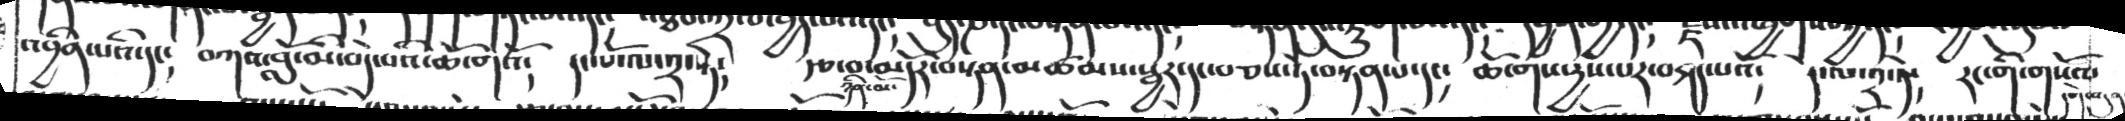འབྱིན་པའི་དང༴  བཀའ་བློ་མི་བདེ་པའི་ཆོ་གའོ༴  དང་པོ་ལ་༢་སྟེ༴  རྩ་བ་མདོར་བསྟན་མཚམས་སྦྱར་དང་བཅས་ཏེ་བསྟན་པ་དང༴  ཆོ་གས་རྱས་པར་བཤད་པའོ༴  དེ་ལ་༢་ཏེ༴  རང་གི་གསོལ
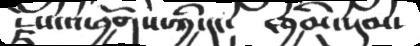རྗེས་ཕྱོགས་ཀྱི་དང། ཁྱིམ་སུམ་
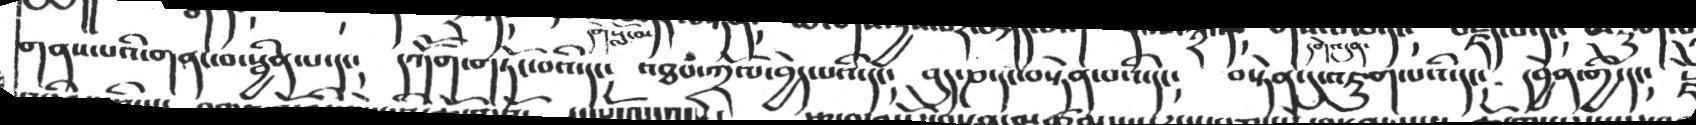གནས་པའི་གནང་བ་སྦྱིན་པ་དང༴  དཀོོག་གཏོང་བའི་དང༴  འཐབ་ཀྲོལ་བྱེད་པའི་དང༴  བུད་ཎ་དང་བསྟན་པའི་དང༴  བསྟེན་དུ་འཇུག་པའི་དང༴  དབྱེན་གྱི་དང༴  རྗེ
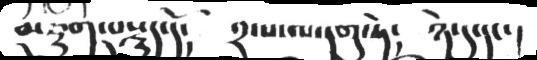མཇུག་བསྡུད་དོ། ༢་པ་ལ་དགུ་ཏེ། ཉེ་དུ་དང་།
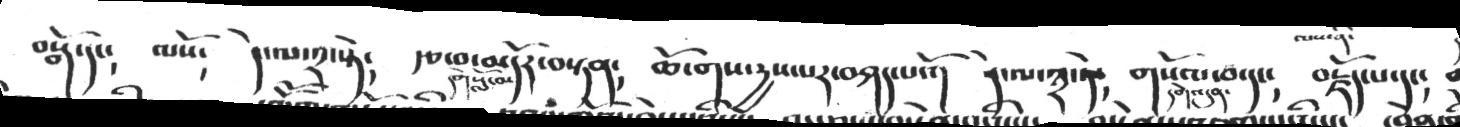བསྒོ་དང༴  ལསོ༴  དེ་ལ་༢་སྟེ༴  རྩ་བ་མདོར་བསྟན༴ ཆོ་གས་རྱས་པར་བཤད་པའོ།  དེ་ལ་༣་ཏེ༴   གསོལ་བ་དང༴  བརྗོད་པ་དང༴
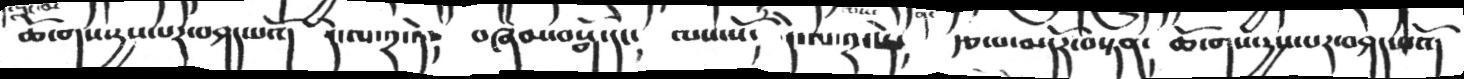ཆོ་གས་དྱས་པར་བཤད་པའོ།  དེ་ལ་༢་ཏེ༴   བཞམ་བསྒོ་དང༴   ལས་སོ༴   དེ་ལ་༢་སྟེ༴   རྩ་བ་མདོར་བསྟན༴   ཆོ་གས་དྱས་པར་བཤད་པའོ།
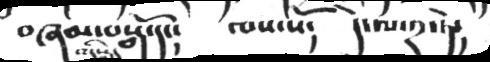བཞམ་བསྒོ་དང༴   ལས་སོ༴   དེ་ལ་༢་ཏེ༴
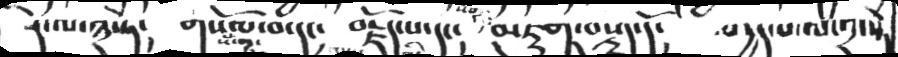དེ་ལ་༣་སྟེ།      གསོལ་བ་དང།   བརྗོད་པ་དང།    མཇུག་བསྡུད་དོ།    བདྱད་པ་ལ་༢་སྟེ
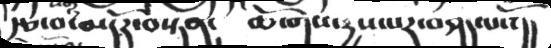རྩ་བ་མདོར་བསྟན།   ཆོ་གས་དྱས་པར་བཤད་པའོ།།
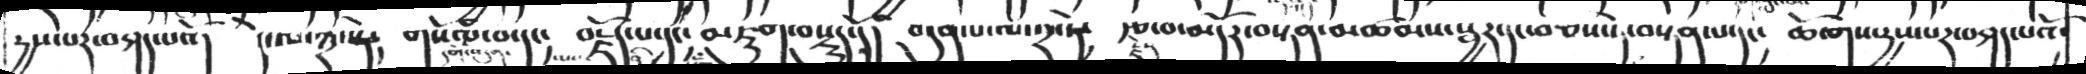རྱས་པར་བཤད་པའོ།   དེ་ལ་༣་སྟེ།   གསོལ་བ་དང།  བརྗོད་པ་དང།  མཇུག་བསྡུད་དོ།   བདུན་པ་ལ་༢་ཏེ་    རྩ་བ་མདོར་བསྟན་མཚམས་སྦྱར་དང་བཅས་ཏེ་བསྟན་པ་དང།   ཆོ་གས་རྱས་པར་བཤད་པའོ་
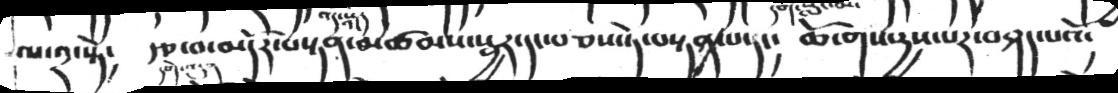ལ་༢་སྟེ༴   རྩ་བ་མདོར་བསྟན་མཚམས་སྦྱར་དང་བཅས་ཏེ་བསྟན་པ་དང༴   ཆོ་གས་དྱས་པར་བཤད་པའོ༴
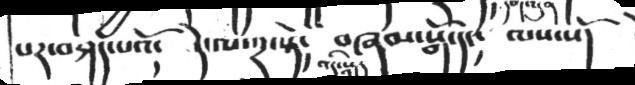པར་བཤད་པའོ༴  དེ་ལ་༢་སྟེ༴  བཞམ་སྒོ་དང༴   ལས་སོ།
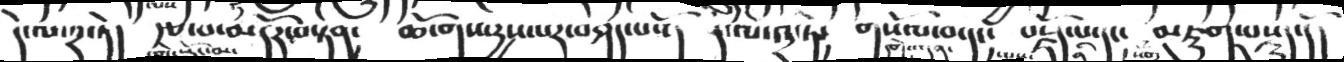དེ་ལ་༢་ཏེ།  རྩ་པ་མདོར་བསྟན༴   ཆོ་གས་དྱས་པར་བཤད་པའོ།   དེ་ལ་༣་ཏེ༴   གསོལ་བ་དང༴   བརྗོད་པ་དང༴   མཇུག་བསྡུད་དོ།
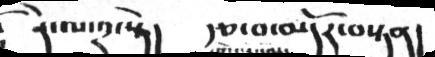དེ་ལ་༢་སྟེ། རྩ་བ་མདོར་བསྟན།
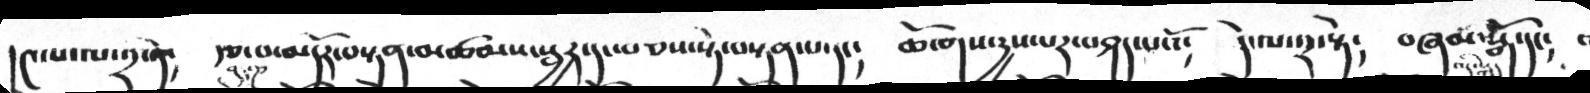།༤་པ་ལ་༢་ཏེ༴   རྩ་བ་མདོར་བསྟན་མཚམས་སྦྱར་དང་བཅས་སྟེ་བསྟན་པ་དང༴   ཆོ་གས་དྱས་པར་བཤད་པའོ༴  དེ་ལ་༢་སྟེ༴   བཞག་སྒོ་དང༴
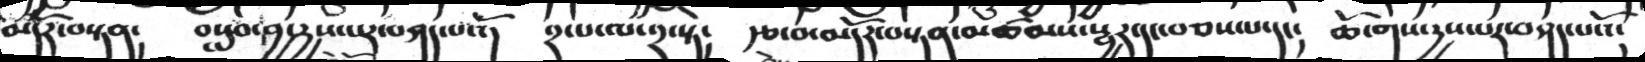མདོར་བསྟན།  བསླབ་བྱ་དྱས་པར་བཤད་པའོ།  ༢་པ་ལ་༢་སྟེ།  རྩ་བ་མདོར་བསྟན་མཚམས་སྦྱར་དང་བཅས་པ་དང། ཆོ་གས་དྱས་པར་བཤདཔའོ།
